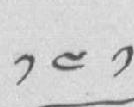༡༤༡
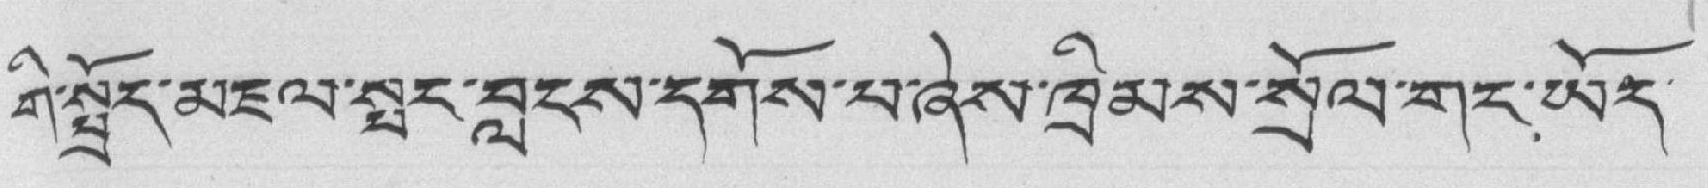གི་སྤྲོད་མཇལ་སྤང་བླངས་དགོས་པ་ཞེས་ཁྲིམས་སྲོལ་གང་ཡོད་
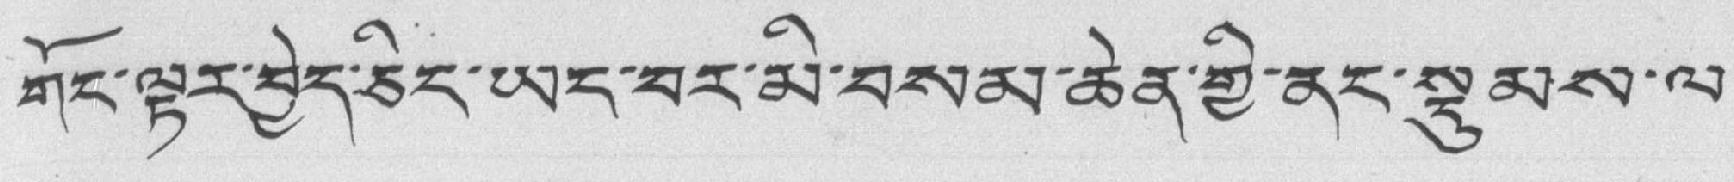གོང་ལྟར་བྱེད་ཅིང་ཡང་བར་མི་བསམ་ཆེན་གྱི་ནང་སྡུམས་ལ་
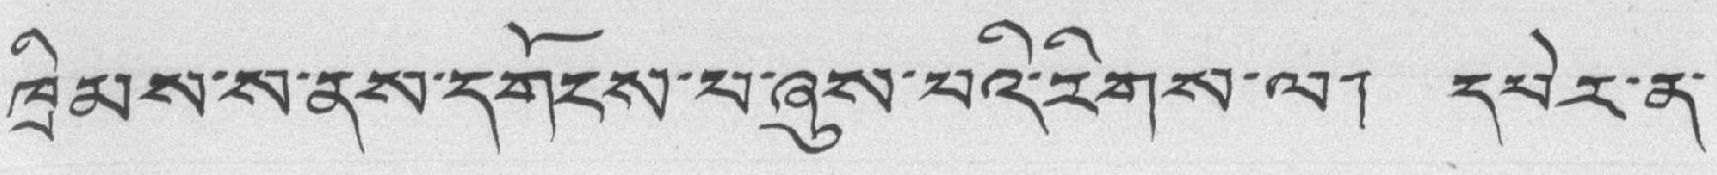ཁྲིམས་ས་ནས་དགོངས་པ་ཞུས་པའི་རིགས་ལ། དཔེར་ན་
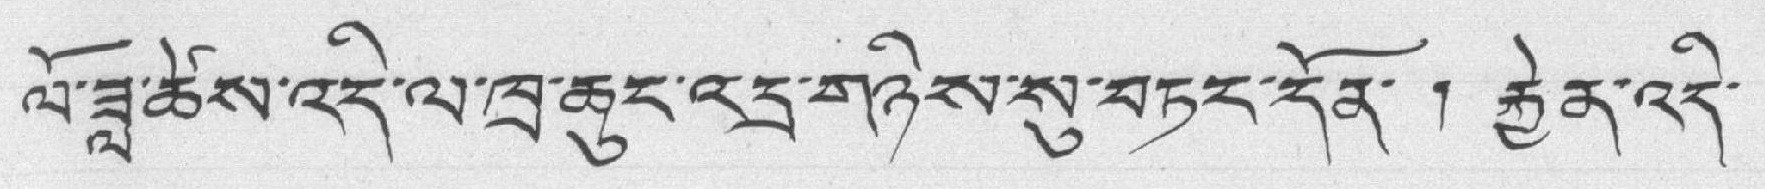ལོ་ཟླ་ཚེས་འདི་ལ་ཁྲ་ཆུང་འདྲ་གཉིས་སུ་བཏང་དོན་ ། རྐྱེན་འད་
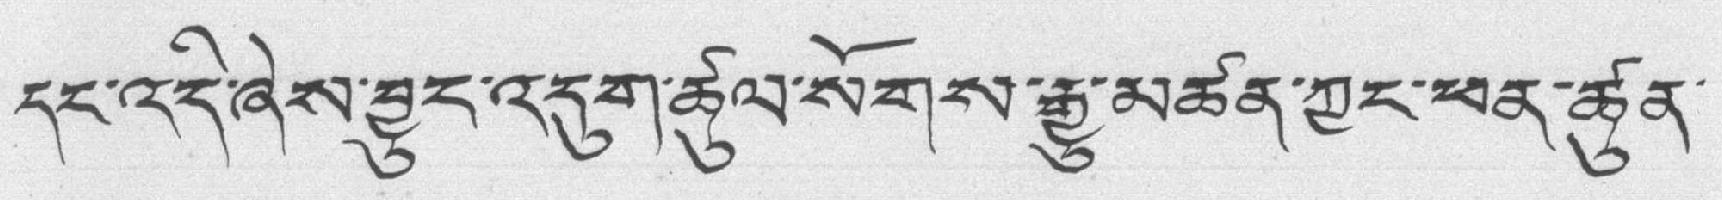དང་འདི་ཞེས་བྱུང་འདུག་ཚུལ་སོགས་རྒྱུ་མཚན་ཀྱང་ཕན་ཚུན་
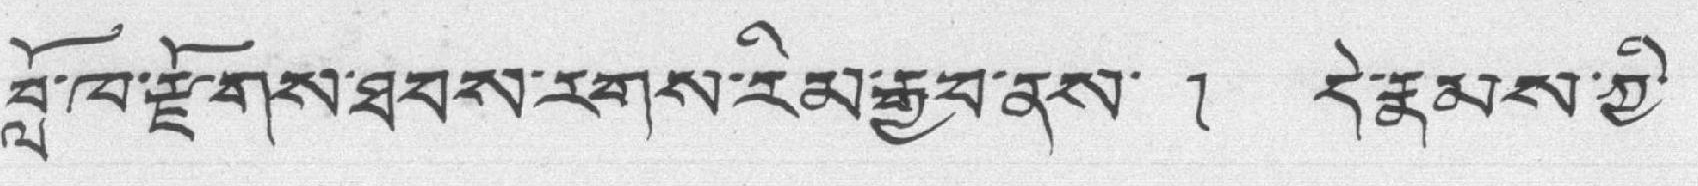བློ་ཁ་རྫོགས་ཐབས་རིགས་རིམ་རྒྱབ་ནས་ ། དེ་རྣམས་ཀྱི་
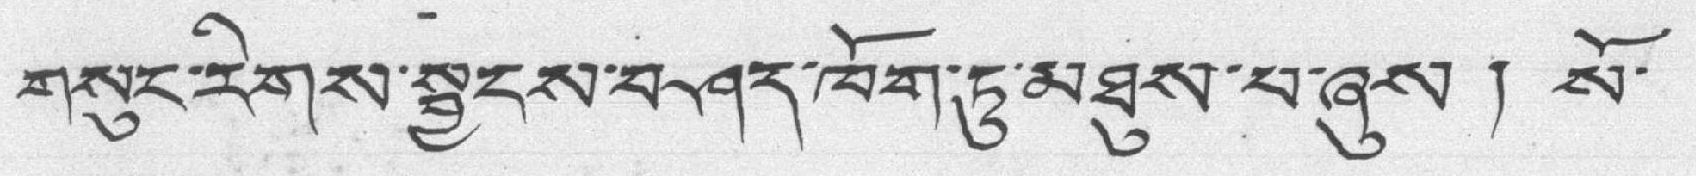གསུང་རིགས་སྦྱངས་བཤད་ཁོག་ཏུ་མཐུས་པ་ཞུས ། སོ་
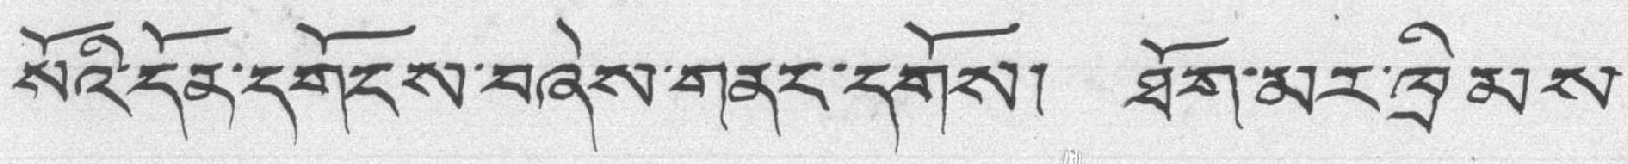སོའི་དོན་དགོངས་བཞེས་གནང་དགོས། ཐོག་མར་ཁྲིམས་
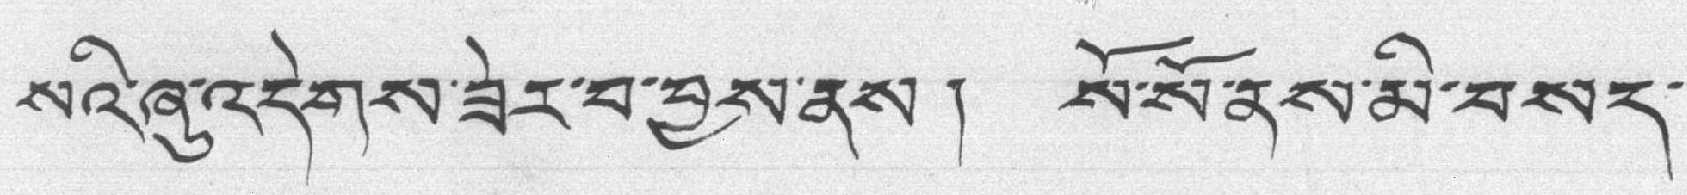སའི་ཞུ་འདེགས་ཟེར་བ་བྱས་ནས། སོ་སོ་ནས་མི་བསད་
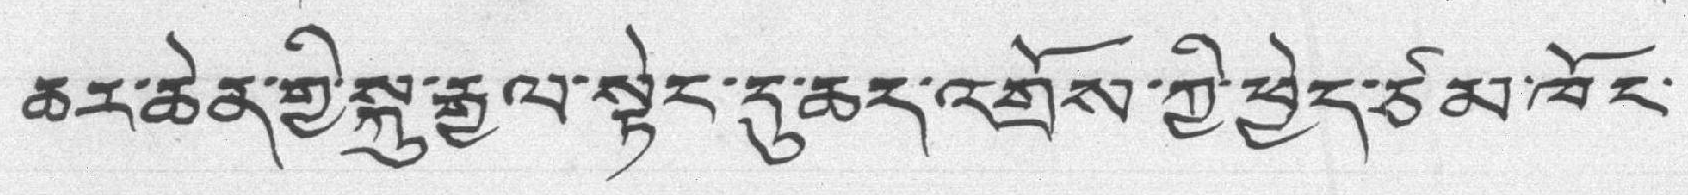ཆར་ཆེན་གྱི་སྐུ་རྒྱལ་སྟེང་དུ་ཆད་འགྲོས་ཀྱི་ཕྱེད་ཙམ་ཁོང་
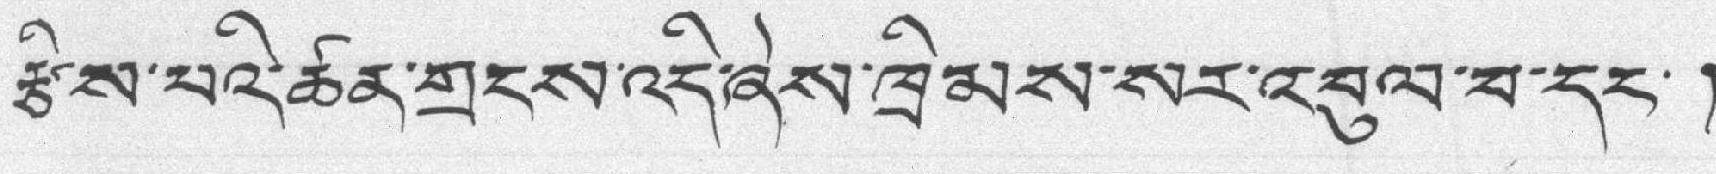རྩིས་པའི་ཚན་གྲངས་འདི་ཞེས་ཁྲིམས་སར་འབུལ་བ་དང་།
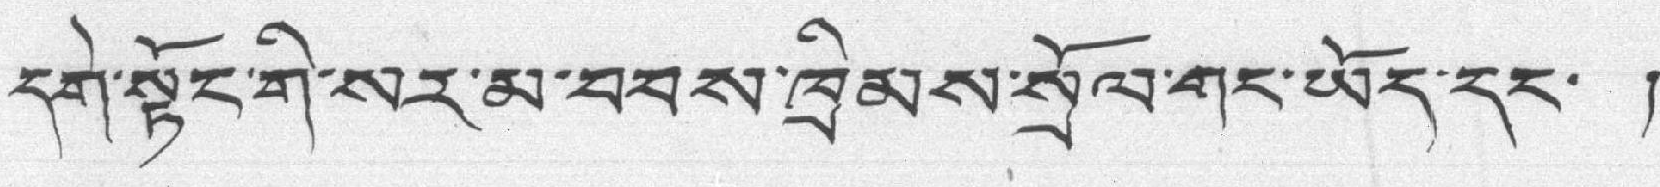དགེ་སྟོང་གི་སར་མ་བབས་ཁྲིམས་སྲོལ་གང་ཡོད་དང་ །
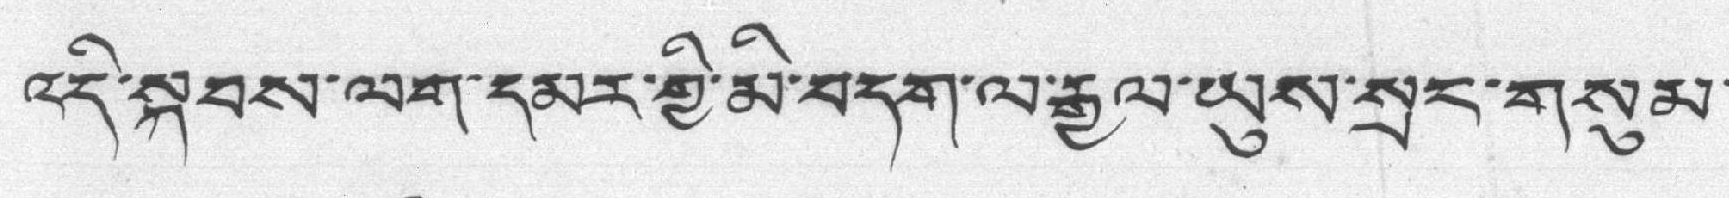འདི་སྐབས་ལག་དམར་གྱི་མི་བདག་ལ་རྒྱལ་ཡུས་སྲང་གསུམ་
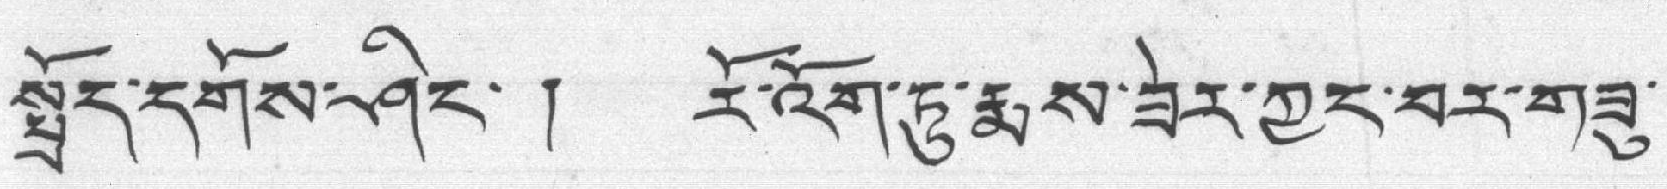སྤྲོད་དགོས་ཤིང་ ། རོ་འོག་ཏུ་རྨས་ཟེར་ཀྱང་བར་གཟུ་
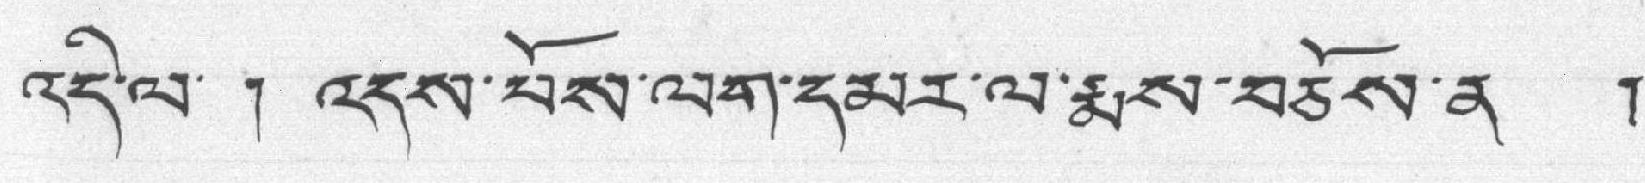འདི་ལ་ ། འདས་པོས་ལག་དམར་ལ་རྨས་བཅོས་ན །
